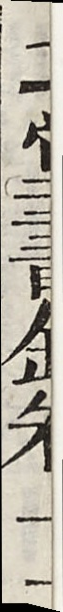北堂書鈔卷一二
